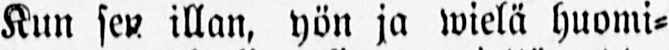Kun sen illan, yön ja wielä huomi-
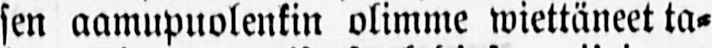sen aamupuolenkin olimme wiettäneet ta-
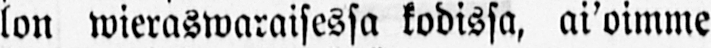lon wieraswaraisessa kodissa, ai'oimme
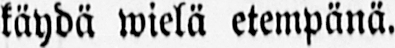käydä wielä etempänä.
